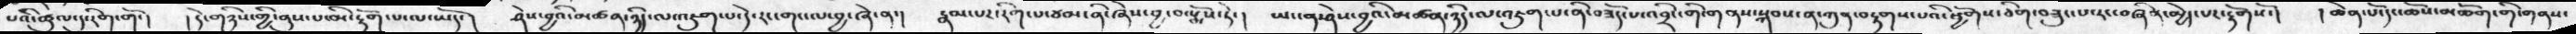པའི་ཚུལ་དུ་རིག་གོ་།  །དེ་གཉིས་གྱི་ནུས་མི་རྟོག་པ་ལ་ཡོད་།  །ཤེས་བྱའི་མཚན་ཉིད་ལ་འཇུག་པ་དེ་རང་གསལ་བྱ་ཞེ་ན་།  །རྣམ་པར་རིག་པ་ཙམ་ནི་ཞེས་བྱ་བ་སྨོས་ཏེ་།  །ཡང་ན་ཤེས་བྱའི་མཚན་ཉིད་ལ་འཇུག་པ་ནི་བཟོད་པ་འབྲེང་གི་གནས་སྐབས་ན་ཀུན་བརྟགས་པའི་ཕྱོགས་ཅིག་བཟུང་པ་རང་བཞིན་མྱེད་པར་རྟོགསོ་།  །ཆེན་དེ་ཆོས་མཆོག་གི་གནས་
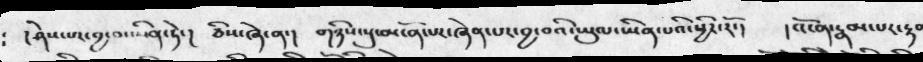༴  །ཤེས་པར་བྱ་བ་ཡིན་ཏེ་།  ཅིས་ཞེ་ན་།  གཉིས་སུ་མངོན་པར་ཞེན་པར་བྱ་བའི་ཡུལ་ཡིན་པའི་ཕྱིར་རོ་།        །འོ་ན་རྣམ་པར་རྟག
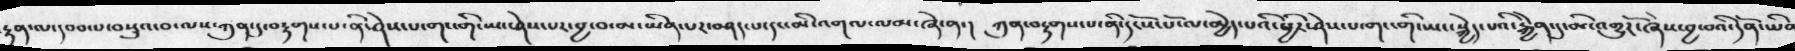རྟན་ལ་དབབ་པ་བསྡུའ་བ་ལས་ཀུན་དུ་བརྟགས་པ་ནི་ཤེས་པ་གང་གི་ཡང་ཤེས་པར་བྱ་བ་མ་ཡིན་པར་བཤད་པ་དང་མི་འགལ་ལམ་ཞེ་ན་།  ཀུན་བརྟགས་པ་ནི་དངོས་པོ་ལ་མྱེད་པའི་ཕྱིར་ཤེས་པ་གང་གི་ཡང་སྐྱེད་པའི་རྐྱེན་དུ་མི་འགྱུརོ་ཞེས་བྱ་བའི་དོན་ཡིན
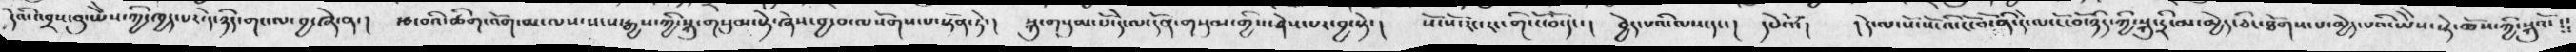དེའི་འབྲས་བུ་ཡེེས་ཀྱི་ཁྱད་པར་དེ་ཉིད་གསལ་བྱ་ཞེ་ན་།   རྩ་བའི་ཚིག་འོག་མ་ལས་སངས་རྒྱས་ཀྱི་སྐུ་གསུམ་སྟེ་ཞེས་བྱ་བ་ལསོགས་པ་སྟོན་ཏེ་།   སྐུ་གསུམ་པོ་དེ་ལ་དོན་གསུམ་གྱིས་ཤེས་པར་བྱ་སྟེ་།   སོ་སོ་རང་རང་གི་ངོ་བོ་དང་།  བྱེད་པའི་ལས་དང་།   དཔེའོ།  ། དེ་ལ་སོ་སོ་འདི་ངོ་བོ་ནི་དེ་ལ་ངོ་བོ་ཉིད་ཀྱི་སྐུ་དྲི་མ་མྱེད་ཅིང་ཐོགས་པ་མྱེད་པའི་ཡེེས་སྟེ་ཆོས་ཀྱི་སྐུའོ་༴༴
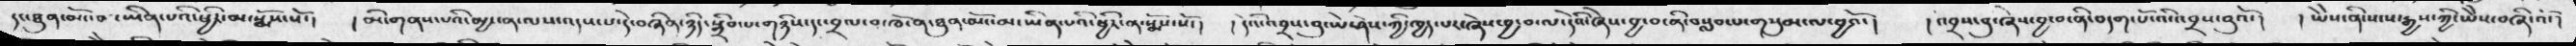དང་ཐུན་མོང་བ་ཡིན་པའི་ཕྱིར་མ་སྨོས་སོ་།   །  མི་གནས་པའི་མྱ་ངན་ལས་འདས་པ་དེ་བཞིན་ཉིད་སྒྲིབ་པ་གཉིས་དང་བྲལ་བ་ཁོ་ན་ཐུན་མོང་མ་ཡིན་པའི་ཕྱིར་ན་སྨོས་སོ་།   དེའི་འབྲས་བུ་ཡེ་ཤེས་ཀྱི་ཁྱད་པར་ཞེས་བྱ་བ་ལ་དེའི་ཞེས་བྱ་བ་ནི་བསླབ་པ་གསུམ་ལ་བྱའོ་།  ། འབྲས་བུ་ཞེས་བྱ་བ་ནི་བདག་པོ་འི་འབྲས་བུའོ་།   ། ཡེེས་ནི་སངས་རྒྱས་ཀྱི་ཡེེས་བཞི་འོ་།
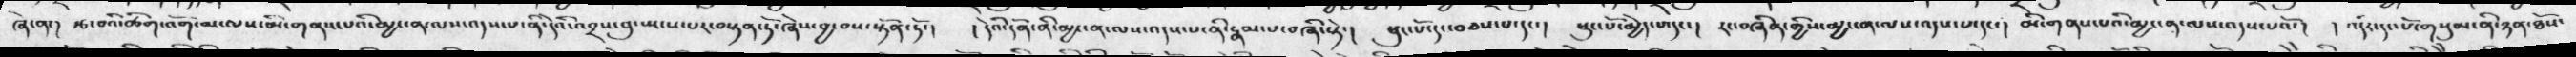ཞེ་ན་།  རྩ་བའི་ཚིག་འོག་མ་ལས་མི་གནས་པའི་མྱ་ངན་ལས་འདས་པ་ནི་དེའི་འབྲས་བུ་སྤངས་པར་བསྟན་ཏོ་ཞེས་བྱ་བས་སྟོན་དོ་།   ། དེའི་དོན་ནི་མྱ་ངན་ལས་འདས་པ་ནི་རྣམ་པ་བཞི་སྟེ་།  ཕུང་པོ་དང་བཅས་པ་དང་།   ཕུང་པོ་མྱེད་པ་དང་།   རང་བཞིན་གྱིས་མྱ་ངན་ལས་འདས་པ་དང་།  མི་གནས་པའི་མྱ་ངན་ལས་འདས་པའོ་།  ། འདིར་དང་པོ་གསུམ་ནི་ཉན་ཐོས་
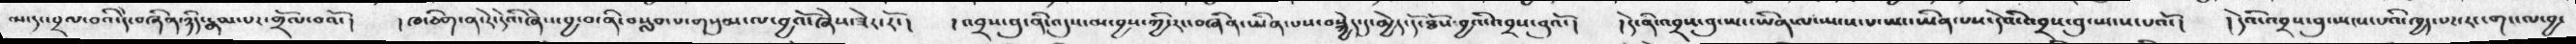ས་དང་བྲལ་བའི་དེ་བཞིན་ཉིད་རྣམ་པར་གྲོལ་བའོ་།   ། ཁ་ཅིག་ན་རེ་དེའི་ཞེས་བྱ་བ་ནི་བསླབ་པ་གསུམ་ལ་བྱའོ་ཞེས་ཟེར་རོ་།  །  འབྲས་བུ་ནི་འདས་མ་བྱས་ཀྱི་རང་བཞིན་ཡིན་པས་བསྐྱེད་དུ་མྱེད་དོ་ཐོས་བྱའི་འབྲས་བུའོ་།    ། དེ་ནི་འབྲས་བུ་ཡང་ཡིན་ལ་ཡངས་པ་ཡང་ཡིན་པས་དེའི་འབྲས་བུ་ཡངས་པའོ་། ། དེའི་འབྲས་བུ་ཡངས་པའི་ཁྱད་པར་རང་གང་ལ་བྱ་
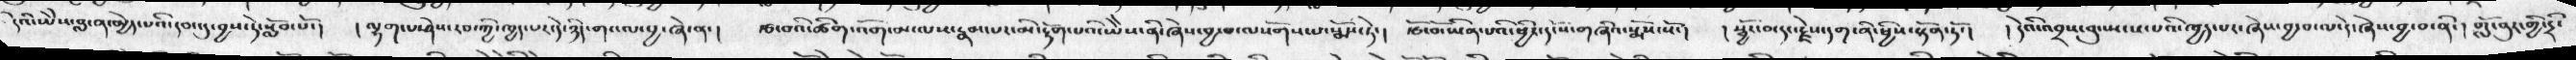དེའི་ཡེེས་བླ་ན་མྱེད་པའི་དབང་དུ་བྱས་དེ་སློབ་པོ་།  ། ལྷག་པ་ཤེས་རབ་ཀྱི་ཁྱད་པར་དེ་ཉིད་གང་ལ་བྱ་ཞེ་ན་།   རྩ་བའི་ཚིག་འོག་མ་ལས་རྣམ་པར་མི་རྟོག་པའི་ཡེེས་ནི་ཞེས་བྱ་བ་ལསོགས་པ་སྨོས་ཏེ་།   རྩོ་བོ་ཡིན་པའི་ཕྱིར་དངོས་གཞིའ་སྨོས་སོ་།   ། སྦྱོར་བ་དང་རྗེས་དག་ནི་ཕྱིས་སྟོན་ཏོ་།    ། དེའི་འབྲས་བུ་ཡངས་པའི་ཁྱད་པར་ཞེས་བྱ་བ་ལ་དེ་ཞེས་བྱ་བ་ནི་།  གློ་བུར་གྱི་དྲི་
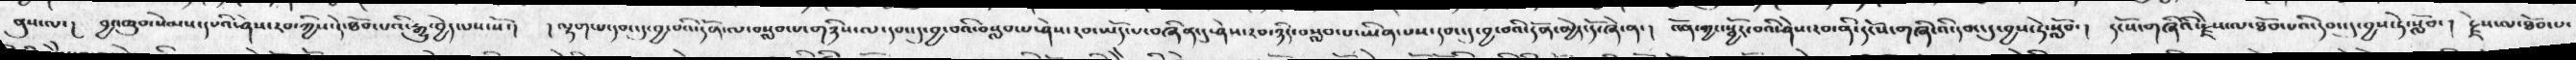བུས་ལ་།   བྱང་ཆུབ་སེམས་དཔའི་ཤེས་རབ་ཀྱིས་དེ་ཐོབ་པའི་རྒྱུ་བྱེད་པས་སོ་། ། ལྷག་པ་དབང་དུ་བྱ་བའི་དོན་ལ་བསླབ་པ་གཉིས་ལ་དབང་དུ་བྱ་བའི་བསླབ་པ་ཤེས་རབ་ཡོད་པ་བཞིན་དུ་ཤེས་རབ་ཉིད་བསླབ་པ་ཡིན་པས་དབང་དུ་བྱ་བའི་དོན་མྱེད་དོ་ཞེ་ན་།  འོན་ཀྱང་སྦྱོར་བའི་ཤེས་རབ་ནི་དངོས་གཞིའི་དབང་དུ་བྱས་ཏེ་སློབ་ །   དངོས་གཞིའི་རྗེས་ལ་ཐོབ་པའི་དབང་དུ་བྱས་ཏེ་སློབ་ །  རྗེས་ལ་ཐོབ་པ
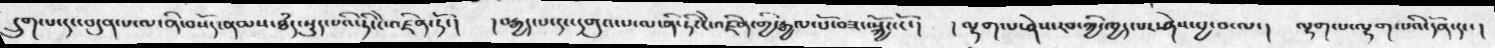དྲུག་པ་དང་བདུན་པ་ལ་ནི་བསོད་ནམས་ཐཾད་སྡུད་པའི་ཏིངངེ་འཛིན་དོ་།   །བརྒྱད་པ་དང་དགུའ་པ་ལ་ནི་ཏིངངེ་འཛིན་གྱི་རྒྱལ་པོ་བཟང་སྐྱོང་ངོ་།   ། ལྷག་པ་ཤེས་རབ་ཀྱི་ཁྱད་པར་ཤེས་བྱ་བ་ལ་། ལྷག་པ་ལྷག་པའི་དོན་དང་།
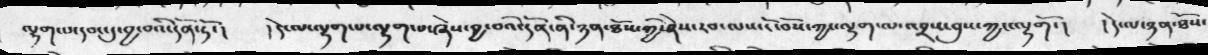ལྷག་པ་དབང་དུ་བྱ་བའི་དོན་ཏོ་།  །དེ་ལ་ལྷག་པ་ལྷག་པ་ཞེས་བྱ་བའི་དོན་ནི་ཉན་ཐོས་ཀྱི་ཤེས་རབ་ལས་ངོ་བོས་ཀྱང་ལྷག་ལ་འབྲས་བུས་ཀྱང་ལྷགོ་།   །དེ་ལ་ཉན་ཐོས་
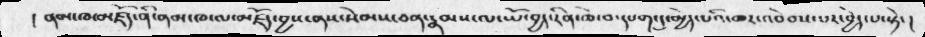།  ནམ་ཁ་མཛོད་ནི་ནམ་ཁ་ལ་མཛོད་བྱས་ནས་སེམས་ཅན་རྣམས་ལ་ཡོ་བྱད་རིན་ཆེ་བ་དཔག་དུ་མྱེད་པའི་ཆར་འབེབས་པར་བྱེད་པ་སྟེ་།
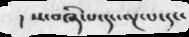།     ས་བཞི་པ་དང་ལྔ་པ་དང་
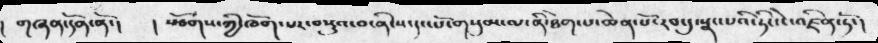། གཞན་དོན་ནོ་།    །  སཙོགས་ཀྱི་ཁོག་པར་བསྡུའ་བ་ནི་ས་དང་པོ་གསུམ་ལ་ནི་ཐེག་པ་ཆེན་པོ་རབ་དུ་སྣང་པའི་ཏིང་ངེ་འཛིན་ཏོ་།
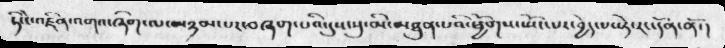ཏིང་ངེ་འཛིན་འགའ་ཞིག་ལ་མཉམ་པར་བཞག་པའི་དུས་སུ་མི་མཐུན་པའི་ཕྱོགས་སྤོང་པར་བྱེད་པ་ཏེ་རང་དོན་ནོ་།
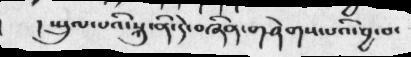། སྤྲུལ་པའི་སྐུ་ནི་དེ་བཞིན་གཤེགས་པའི་བྱ་བ་
